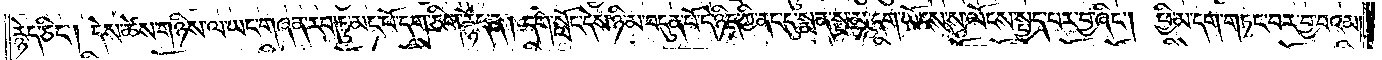རྙེད་ཅིང༌། དེས་ཚེས་གཉིས་ལ་ཡང་གཞན་རབ་ཏུ་མང་པོ་དག་ཅིག་རྙེད་ན། དགེ་སློང་དེས་ཉི་མ་བདུན་པོ་དེ་ཉིད་ཀྱི་ནང་དུ་སྨན་སྔ་མ་དག་ཡོངས་སུ་ལོངས་སྤྱད་པར་བྱ་ཞིང༌། ཕྱི་མ་དག་གཏང་བར་བྱ་བའམ།
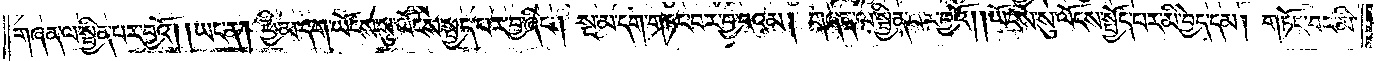གཞན་ལ་སྦྱིན་པར་བྱའོ། །ཡང་ན། ཕྱི་མ་དག་ཡོངས་སུ་ལོངས་སྤྱད་པར་བྱ་ཞིང༌། སྔ་མ་དག་གཏང་བར་བྱ་བའམ། གཞན་ལ་སྦྱིན་པར་བྱའོ། །ཡོངས་སུ་ལོངས་སྤྱོད་པར་མི་བྱེད་དམ། གཏོང་བར་མི་
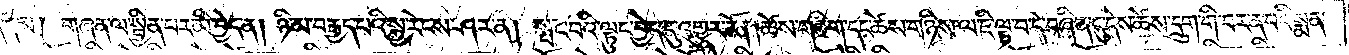བྱེད་དམ། གཞན་ལ་སྦྱིན་པར་མི་བྱེད་ན། ཉི་མ་བརྒྱད་པའི་སྐྱ་རེངས་ཤར་ན། སྤང་བའི་ལྟུང་བྱེད་དུ་འགྱུར་རོ། །ཚེས་གཅིག་དང་ཚེས་གཉིས་ལ་ཇི་ལྟ་བ་དེ་བཞིན་དུ་དེས་ཚེས་དྲུག་གི་བར་ན་བའི་སྨན་
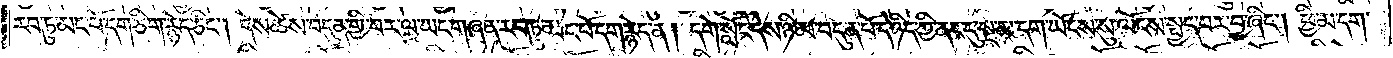རབ་ཏུ་མང་པོ་དག་ཅིག་རྙེད་ཅིང༌། དེས་ཚེས་བདུན་གྱི་བར་ལ་ཡང་གཞན་རབ་ཏུ་མང་པོ་དག་རྙེད་ན། དགེ་སློང་དེ་ཉི་མ་བདུན་པོ་དེ་ཉིད་ཀྱི་ནང་དུ་སྔ་མ་དག་ཡོངས་སུ་ལོངས་སྤྱད་པར་བྱ་ཞིང༌། ཕྱི་མ་དག་
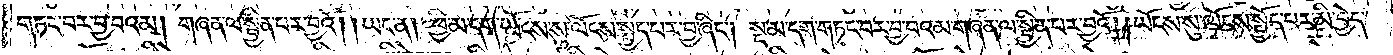གཏང་བར་བྱ་བའམ། གཞན་ལ་སྦྱིན་པར་བྱའོ། །ཡང་ན། ཕྱི་མ་དག་ཡོངས་སུ་ལོངས་སྤྱད་པར་བྱ་ཞིང༌། སྔ་མ་དག་གཏང་བར་བྱ་བའམ་གཞན་ལ་སྦྱིན་པར་བྱའོ། །ཡོངས་སུ་ལོངས་སྤྱོད་པར་མི་བྱེད་
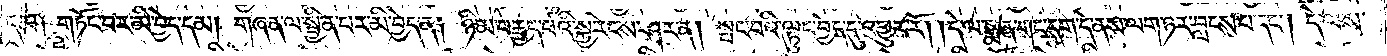དམ། གཏོང་བར་མི་བྱེད་དམ། གཞན་ལ་སྦྱིན་པར་མི་བྱེད་ན། ཉི་མ་བརྒྱད་པའི་སྐྱ་རེངས་ཤར་ན། སྤང་བའི་ལྟུང་བྱེད་དུ་འགྱུར་རོ། །དེ་ལ་སྨན་གང་དག་དེ་ནས་ལག་ཉར་བླངས་པ་དང༌། དེ་ལས་
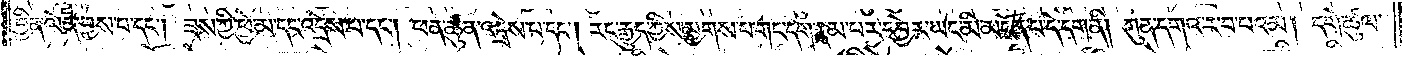བྱིན་ལེན་བྱས་པ་དང༌། ཟས་ཀྱི་ཕྱེ་མ་དང་འདྲེས་པ་དང༌། ཕན་ཚུན་འདྲེས་པ་དང༌། རང་རྒྱུད་ཀྱིས་མྱགས་པ་གང་དག་རྣམ་པར་དབྱེར་ཡང་མི་མངོན་པ་དེ་དག་ནི། ཀུན་དགའ་ར་བ་པའམ། དགེ་ཚུལ་
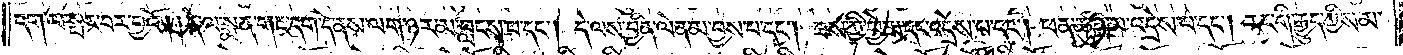དག་ལ་སྤང་བར་བྱའོ། །དེ་ལ་སྨན་གང་དག་དེ་ནས་ལག་ཉར་མ་བླངས་པ་དང༌། དེ་ལས་བྱིན་ལེན་མ་བྱས་པ་དང༌། ཟས་ཀྱི་ཕྱེ་མ་དང་འདྲེས་པ་དང༌། ཕན་ཚུན་མ་འདྲེས་པ་དང༌། རང་གི་རྒྱུད་ཀྱི་ས་མ་
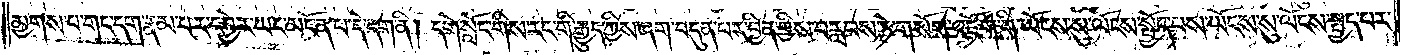མྱགས་པ་གང་དག་རྣམ་པར་དབྱེར་ཡང་མངོན་པ་དེ་དག་ནི། དགེ་སློང་གིས་རང་གི་རྒྱུད་ཀྱིས་ཞག་བདུན་པར་བྱིན་གྱིས་བརླབས་ཏེ་གསོག་འཇོག་གི་ཡོངས་སུ་ལོངས་སྤྱོད་པས་ཡོངས་སུ་ལོངས་སྤྱད་པར་
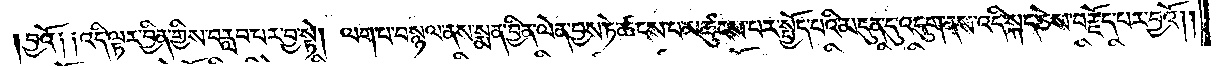བྱའོ༑ ༑འདི་ལྟར་བྱིན་གྱིས་བརླབ་པར་བྱ་སྟེ། ལག་པ་བསྙལ་ནས་སྨན་བྱིན་ལེན་བྱས་ཏེ་ཚངས་པ་མཚུངས་པར་སྤྱོད་པའི་མདུན་དུ་འདུག་ནས་འདི་སྐད་ཅེས་བརྗོད་པར་བྱའོ། །
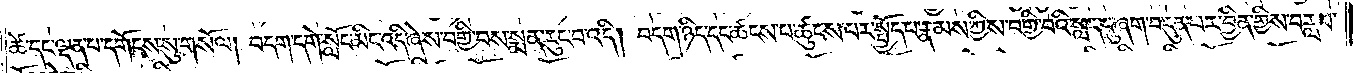ཚེ་དང་ལྡན་པ་དགོངས་སུ་གསོལ། བདག་དགེ་སློང་མིང་འདི་ཞེས་བགྱི་བས་སྨན་རུང་བ་འདི། བདག་ཉིད་དང་ཚངས་པ་ཚུངས་པར་སྤྱོད་པ་རྣམས་ཀྱིས་བགྱི་བའི་སླད་དུ་ཞག་བདུན་པར་བྱིན་གྱིས་བརླབ་
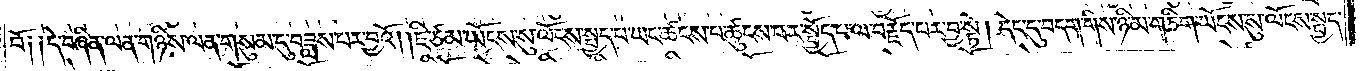བོ༑ ༑དེ་བཞིན་ལན་གཉིས་ལན་གསུམ་དུ་བཟླས་པར་བྱའོ། །ཇི་ཙམ་ཡོངས་སུ་ལོངས་སྤྱད་པ་ཡང་ཚངས་པ་ཚུངས་པར་སྤྱོད་པ་ལ་བརྗོད་པར་བྱ་སྟེ། དེང་དུ་བདག་གིས་ཉི་མ་གཅིག་ཡོངས་སུ་ལོངས་སྤྱད་
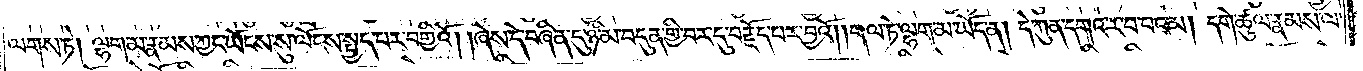ལགས་ཏེ། ལྷག་མ་རྣམས་ཀྱང་ཡོངས་སུ་ལོངས་སྤྱད་པར་བགྱིའོ། །ཞེས་དེ་བཞིན་དུ་ཉི་མ་བདུན་གྱི་བར་དུ་བརྗོད་པར་བྱའོ། །གལ་ཏེ་ལྷག་མ་ཡོད་ན། དེ་ཀུན་དགའ་ར་བ་བའམ། དགེ་ཚུལ་རྣམས་ལ་
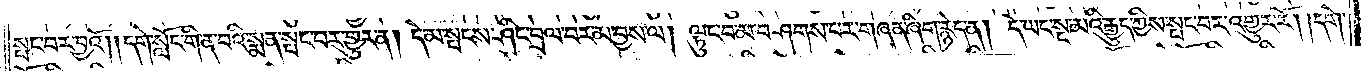སྤང་བར་བྱའོ། །དགེ་སློང་གི་ན་བའི་སྨན་སྤང་བར་གྱུར་ན། དེ་མ་སྤངས་ཤིང་བྲལ་བར་མ་བྱས་ལ། ལྟུང་བ་མ་བཤགས་པར་གཞན་ཞིག་རྙེད་ན། དེ་ཡང་སྔ་མའི་རྒྱུད་ཀྱིས་སྤང་བར་འགྱུར་རོ། །དགེ་
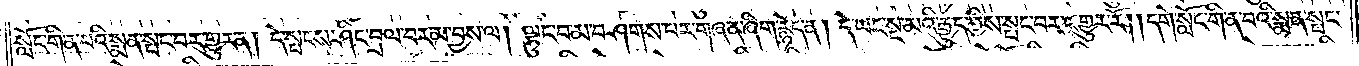སློང་གི་ན་བའི་སྨན་སྤང་བར་གྱུར་ན། དེ་སྤངས་ཤིང་བྲལ་བར་མ་བྱས་ལ། ལྟུང་བ་མ་བཤགས་པར་གཞན་ཞིག་རྙེད་ན། དེ་ཡང་སྔ་མའི་རྒྱུད་ཀྱིས་སྤང་བར་འགྱུར་རོ། །དགེ་སློང་གི་ན་བའི་སྨན་སྤང་
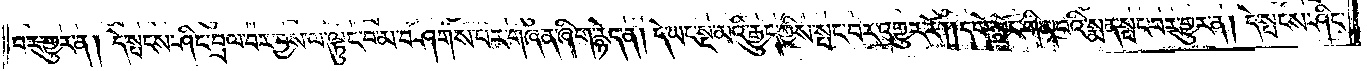བར་གྱུར་ན། དེ་སྤངས་ཤིང་བྲལ་བར་བྱས་ལ་ལྟུང་བ་མ་བཤགས་པར་གཞན་ཞིག་རྙེད་ན། དེ་ཡང་སྔ་མའི་རྒྱུད་ཀྱིས་སྤང་བར་འགྱུར་རོ། །དགེ་སློང་གི་ན་བའི་སྨན་སྤང་བར་གྱུར་ན། དེ་སྤངས་ཤིང་
